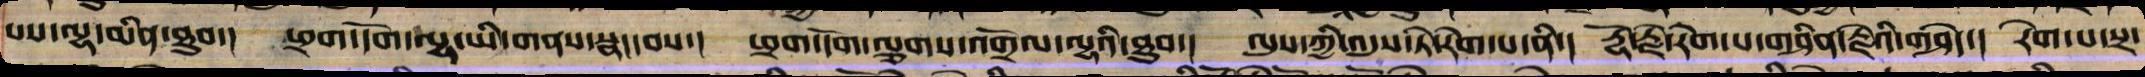བས་ལྷ་མིན་ཐུབ་། ཕྲག་དོག་ལྷ་ཡི་གནས་སྣང་བས་། ཕྲག་དོག་ལྕགས་འགྲོལ་ལྷ་ཡི་ཐུབ་། ལུས་ཀྱི་འདུས་ཏེ་རེག་པ་ནི་། རྡོ་རྗེ་རེག་པ་གཤིན་རྗེའི་གཤེད་། རེག་པ་སྲ་
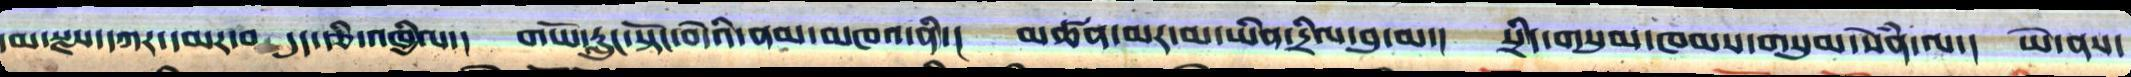དམ་སྫས་དཀར་དམར་བདུད་རྩི་འཁྱིལ་། གཡོ་རླུང་སྟོང་བདེའི་ནམ་མཁའ་ནི་། མཚན་མར་མ་ཡིན་དྲིལ་བུ་མ་། སྲིད་གསུམ་ཁམས་གསུམ་སེམས་ཅན་ལ་། ཡེ་ནས་
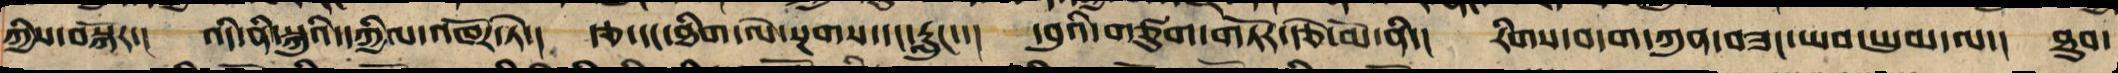ཀྱིས་བསྐོར་། འདི་ནི་སྐུའི་དཀྱིལ་འཁོར་ཏེ་། རྩ་དང་ཐིག་ལེ་སྔགས་དང་རླུང་་། དབུ་ཡི་གཙུག་ཏོར་རྩེ་མོ་ནི་། རིགས་བདག་ཀུན་བཟང་ཡབ་ཡུམ་ལ་། ཐུབ་
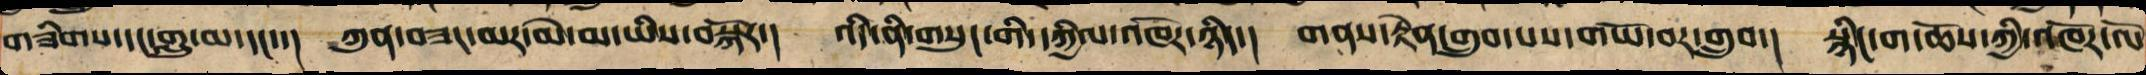གཟིགས་དང་གླུ་མ་དང་་། ཀུན་བཟང་མར་མེ་མ་ཡིས་བསྐོར་། འདི་ནི་གསུང་གི་དཀྱིལ་འཁོར་ཉིད་། གནས་རྟེན་གྲུབ་པས་གཡོ་བར་གྲུབ་། སྙིང་ག་ཆོས་ཀྱི་འཁོར་ལོ
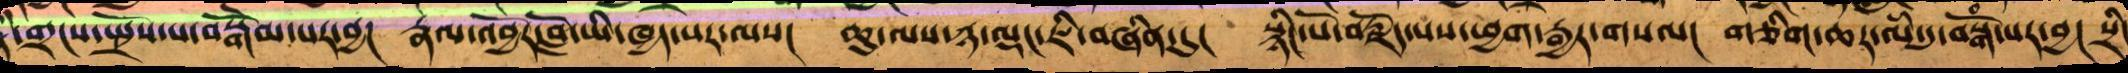རྣམ་གྲངས་སྤྲོས་པ་བསྒོམ་པར་བྱ། རྣལ་འབྱོར་བློ་ཡི་ཁྱད་པར་ལས། ཆུ་ལས་ཉ་ལྡང་ཇི་བཞིན་དུ། སྙིང་པོ་བརྗོད་པས་ཕྱག་རྒྱར་གསལ། ཅིག་ཆར་ལཾ་དུ་བསྒོཾ་པར་བྱ། སྲིད་
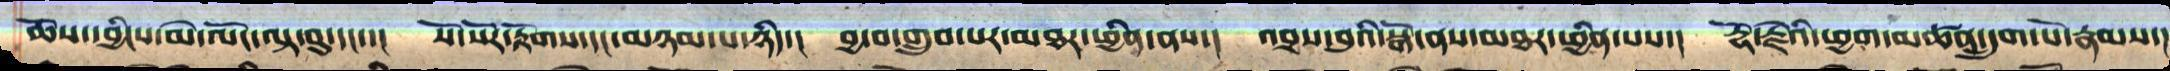ཆོས་དབྱིངས་མེ་ལོང་ལྟ་བུ་དང་་། སོ་སོར་རྟོག་དང་མཉམ་པ་ཉིད་། བྱ་བ་གྲུབ་པར་མཐར་ཕྱིན་པས་། འབྲས་བུའི་སྒོ་ནས་མཐར་ཕྱིན་པས་། རྡོ་རྗེའི་ཕྱག་མཚན་དྲུག་པོ་རྣམས་།
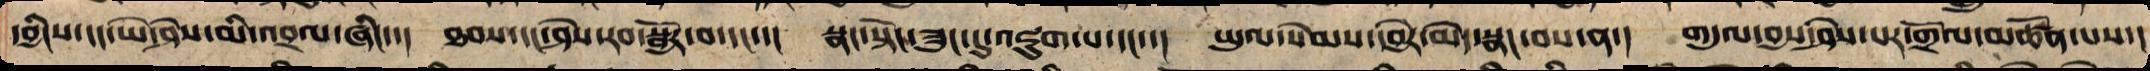དབྱིངས་དང་ཡེ་ཤེས་མི་འབྲལ་ཞིང་་། ཐབས་དང་ཤེས་རབ་སྦྱོར་བ་དང་་། སྣང་སྟོང་ཟུང་དུ་འཇུག་པ་དང་་། ཡུལ་སེམས་དབྱེར་མེད་སྣང་བས་ན་། གདུལ་བྱའི་ཤེས་པར་གྲོལ་མཚོན་པས་།
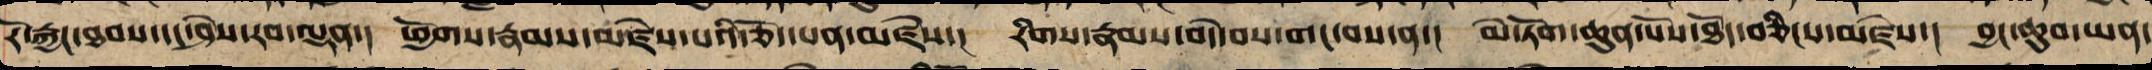རོ་རྐྱང་ཐབས་དང་ཤེས་རབ་ལྡན་། ཕྱོགས་རྣམས་མཛེས་པའི་ཅོད་པན་མཛེས་། རིགས་རྣམས་བདེ་བས་གང་བས་ན་། མེ་ཏོག་ཆུན་པོས་ཐོད་བཅིངས་མཛེས་། བྱང་ཆུབ་ཡན་
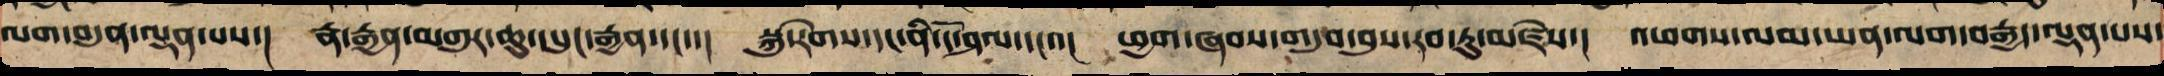ལག་བདུན་ལྡན་པས་། རྣ་རྒྱན་མགུལ་ཆུ་དཔུང་རྒྱན་དང་་། སྐུ་རེགས་དང་ནི་དོ་ཤལ་དང་་། ཕྱག་ཞབས་གདུབ་བུས་རབ་ཏུ་མཛེས་། འཕགས་ལམ་ཡན་ལག་བརྒྱད་ལྡན་པས་
